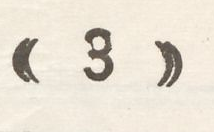(( 3 )) ༈ བོད་མིའི་རང་དབང་གསར་ཤོག །
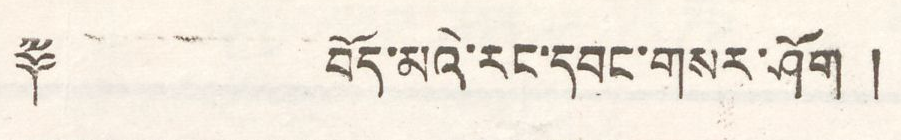(( 3 )) ༈ བོད་མིའི་རང་དབང་གསར་ཤོག །
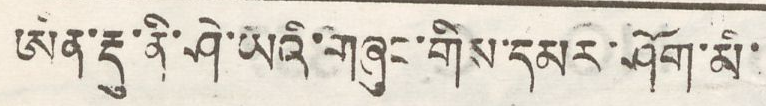ཨིན་རྡུ་ནི་ཤ་ཡའི་གཞུང་གིས་དམར་ཤོག་མི་
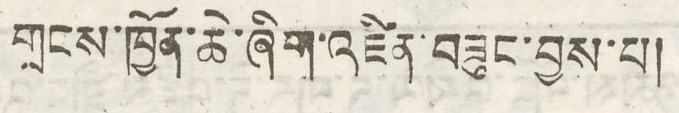གྲངས་ཁྱོན་ཆེ་ཞིག་འཛིན་བཟུང་བྱས་པ།
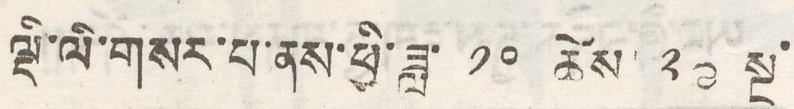ལྡི་ལི་གསར་པ་ནས་ཕྱི་ཟླ་ ༡༠ ཚེས་ ༢༠ སྔ་
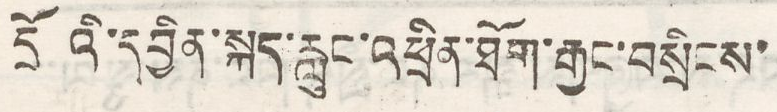དྲོ འི་དབྱིན་སྐད་རླུང་འཕྲིན་ཐོག་རྒྱང་བསྲིངས་
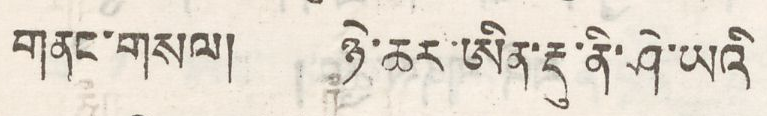གནང་གསལ། ཉེ་ཆར་ཨིན་རྡུ་ནི་ཤེ་ཡའི
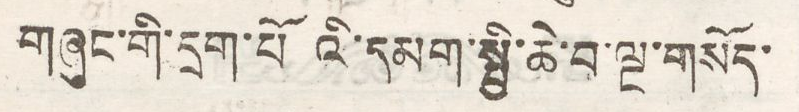གཞུང་གི་དྲག་པོའི་དམག་སྤྱི་ཆེ་བ་ལྔ་གསོད་
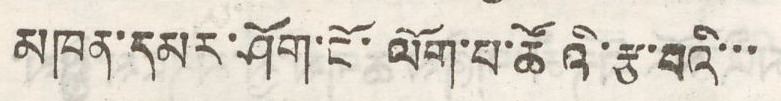མཁན་དམར་ཤོག་ངོ་ལོག་པ་ཚོའི་རྩ་བའི་་་
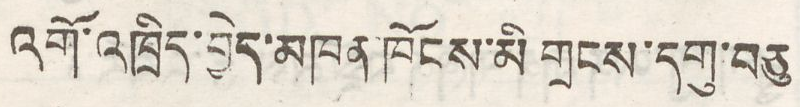འགོ་འཁྲིད་བྱེད་མཁན་ཁོངས་མི གྲངས་དགུ་བཅུ
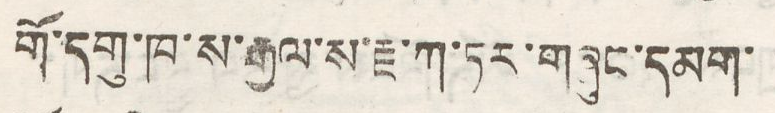གོ་དགུ་ཁ་ས་རྒྱལ་ས་རྗ་ཀ་ཏར་གཞུང་དམག་
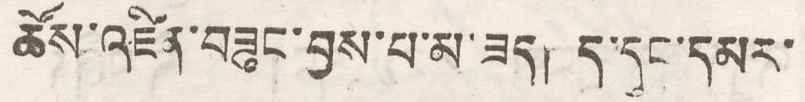ཚོས་འཛིན་བཟུང་བྱས་པ་མ་ཟད། ད་དུང་དམར་
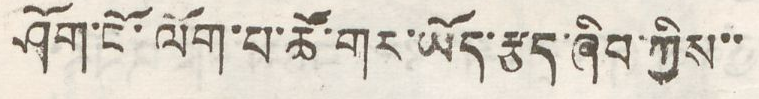ཤོག་ངོ་ལོག་པ་ཚོ་གར་ཡོད་རྩད་ཞིབ་ཀྱིས་་
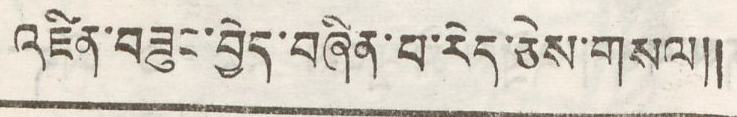འཛིན་བཟུང་བྱེད་བཞིན་པ་རེད་ཅེས་གསལ།།
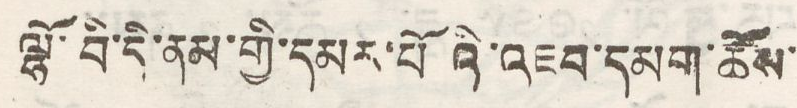ལྷོ་བི་དི་ནམ་གྱི་དམར་པོའི་འཇམ་དམག་ཚོས་
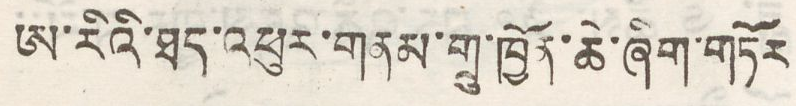ཨ་རིའི་ཐད་འཕུར་གནམ་གྲུ་ཁྱོན་ཆེ་ཞིག་གཏོར
